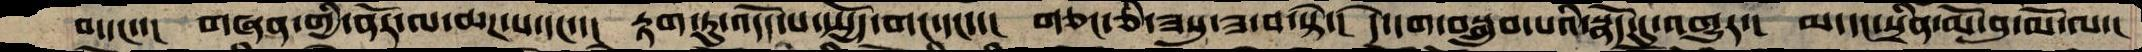བ་དང་་།  གཞན་གྱི་ནོར་ལ་ཆཌ་པ་དང་་།  རྟག་ཏུ་འདོད་པ་སྤྱོད་གང་དང་་།  གཅང་ཅི་ཟསུ་ཟ་བ་སྟེ་།  དེ་དག་བསྒྲུབ་པའི་སྣོད་དུ་འགྱུར་།  མ་དང་སྲིན་མོ་བུ་མོ་ལ་།
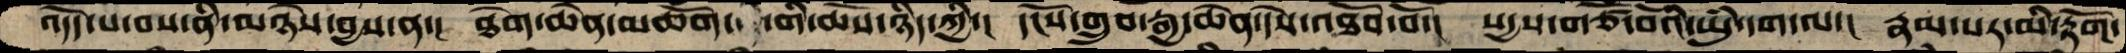འདོད་པ་བས་ནི་མཉེས་བྱས་ན་།  ཐེག་ཆེན་མཆོག་ གི་ཆོས་ཉིད་ཀྱི་།  དངོས་གྲུབ་རྒྱ་ཆེན་དེས་འཐོབ་བོ་།  སདྱས་གཙོ་བོའི་ཡུཾ་དག་ལ་།  རྣམ་པར་མི་རྟོག་
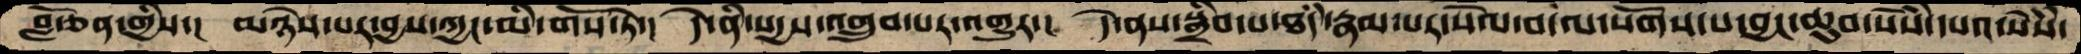བློ་ཅན་གྱིས་།  མཉེས་པར་བྱས་ཀྱང་མི་གོས་ཏེ་།  དེ་ནི་སདྱས་འགྲུབ་པར་འགྱུར་།  དེ་ནས་སྒྲིབ་པ་ཐཾད་རྣམ་པར་སེལ་བ་ལ་སོགས་པ་བྱང་ཆུབ་སེཾས་དཔའ་སེཾས་
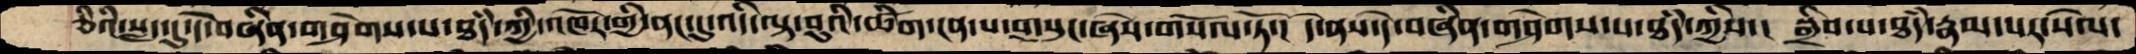ཅིའི་སླད་དུ་དེ་བཞིན་གཤེགས་པ་ཐཾད་ཀྱི་འཁོར་གྱི་ནང་དུ་འདི་ལྟ་བུའི་ཚིག་ངན་པ་གསུང་ཞེས་གསོལ་ཏོ་།  དེ་ནས་དེ་བཞིན་གཤེགས་པ་ཐཾད་ཀྱིས་།  སྒྲིབ་པ་ཐཾད་རྣམ་པར་སེལ་
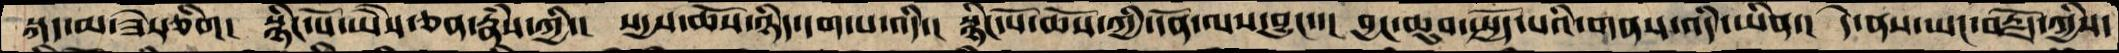སྐད་མ་ཟེར་ཅིག།  སྙིང་པོ་ཡཻས་ཅན་རྣཾས་ཀྱི་།  སདྱས་ཆོས་ཉིད་དག་པ་འདི་།  སྙིང་པོ་ཆོས་ཀྱི་དོན་ལས་བྱུང་་།  བྱང་ཆུབ་སྤྱོད་པའི་གནས་འདི་ཡིན་།  དེ་ནས་ཡང་བརྗོད་ཀྱིས་
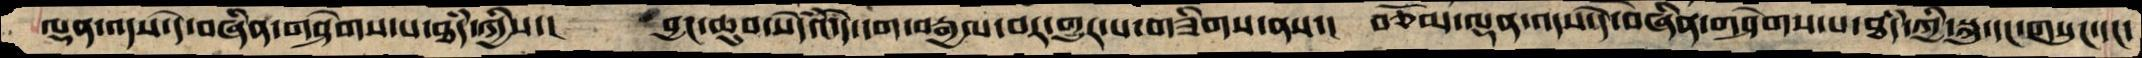ལྡན་འདས་དེ་བཞིན་གཤེགས་པ་ཐཾད་ཀྱིས་།  བྱང་ཆུབ་སེདཾའ་དེ་དག་བརྒྱལ་བར་གྱུར་པ་གཟིགས་ནས་།  བཅོམ་ལྡན་འདས་དེ་བཞིན་གཤེགས་པ་ཐཾད་ཀྱི་སྐུ་དང་གསུང་དང་
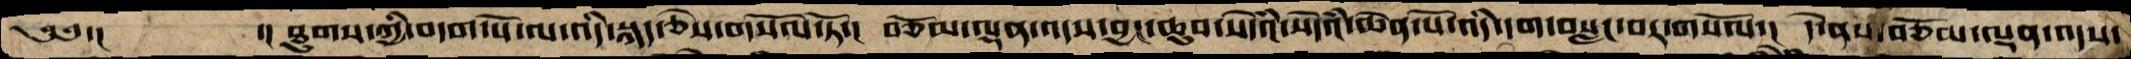༄༅་།       ་།ཐུགས་ཀྱི་བདག་པོ་ལ་འདི་སྐད་ཅེས་གསོལ་ཏོ་།  བཅོམ་ལྡན་འདས་བྱང་ཆུབ་སེདཾའ་སེདཾའ་ཆེན་པོ་འདི་དག་བསླང་བར་གསོལ་།  དེ་ནས་བཅོམ་ལྡན་འདས་
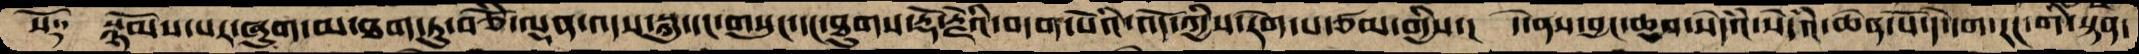སོ༑  སྙོམས་པར་ཞུག་མ་ཐག་ཏུ་བཅོཾ་ལྡན་འདས་སྐུ་དང་གསུང་དང་ཐུགས་རྡོ་རྗེའི་བདག་པོའི་འོད་ཀྱིས་རེག་པ་ཙམ་གྱིས་།  དེ་ནས་བྱང་ཆུབ་སེདཾའ་སེདཾའ་ཆེན་པོ་དེ་དག་རང་གི་སྟན་
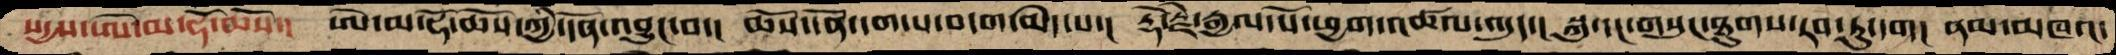སདྱས་ཨེ་མ་ཧོ་ཆོས་།  ཨེ་མ་ཧོ་ཆོས་ཀྱི་དོན་འབྱུང་བ་།  ཆོས་དོན་དག་པ་བདག་མེད་པ་།  རྡོ་རྗེ་རྒྱལ་པོ་ཕྱག་འཚལ་འདུད་།  སྐུ་དང་གསུང་ཐུགས་རབ་ཏུ་དག།  ནམ་མཁའ་
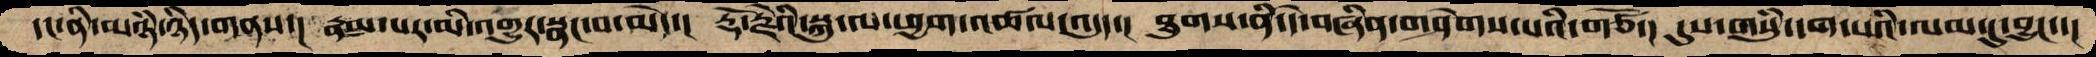དང་ནི་མཉཾ་ཉིད་གནས་།  རྣམ་པར་མི་འགྱུར་སྣང་བ་མེད་།  རྡོ་རྗེའི་སྐུ་ལ་ཕྱག་འཚལ་འདུད་།  ཐུགས་ནི་དེ་བཞིན་གཤེགས་པའི་གཙོ་།  དུས་གསུཾཾ་དག་པའི་ལམ་དུ་བྱུང་་།
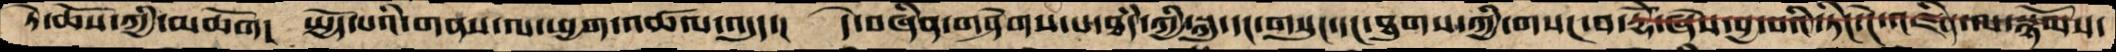ཏེ་ཆོས་ཀྱི་མཆོག།  སྤྱོད་པའི་གནས་ལ་ཕྱག་འཚལ་འདུད་  དེ་བཞིན་གཤེགས་པ་ཐཾད་ཀྱི་སྐུ་དང་གསུང་དང་ཐུགས་ཀྱི་གསང་བ་རྡོེ་ཞེས་བྱ་བའི་ཏིང་ངེ་འཛིན་ལ་སྙོམས་
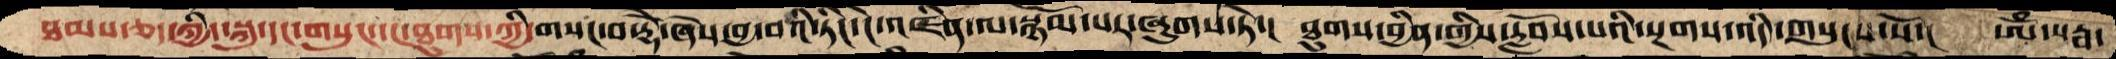ཐམས་ཅད་ཀྱི་སྐུ་དང་གསུང་དང་ཐུགས་ཀྱི་གསང་བ་རྡོེ་ཞེས་བྱ་བའི་ཏིང་ངེ་འཛིན་ལ་སྙོམ་པར་ཞུགས་ཏེ་།  ཐུགས་བྱིན་གྱིས་རློབས་པའི་སྔགས་འདི་གསུངས་སོ་།  ཨོཾ་སརྦ་
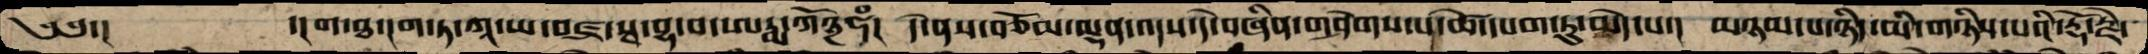༄༅་།  ་།ག་ཐ་ངག་ཏ་ཀཱ་ཡ་བཛྲ་སྭ་བྷ་བ་ཨཏྨ་ཀོ྅ཧཾ།  དེ་ནས་བཅོམ་ལྡན་འདས་དེ་བཞིན་གཤེགས་པ་ཚེ་དཔག་ཏུ་མེད་པ་།  མཉམ་པ་ཉིད་མི་གཉིས་པའི་རྡོ་རྗེ་
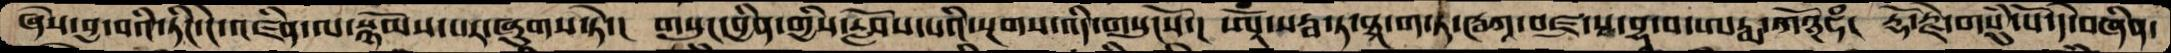ཞེས་བྱ་བའི་ཏིང་ངེ་འཛིན་ལ་སྙོམས་པར་ཞུགས་ཏེ་།  གསུང་བྱིན་གྱིས་རློབས་པའི་སྔགས་འདི་གསུངས་སོ་།  ཨཱོཾ་སརྦ་ཏ་ཐཱ་ག་ཏ་ཝཀཱ་བཛྲ་སྭ་བྷ་བ་ཨཏྨ་ཀོ྅ཧཾ།  རྡོ་རྗེ་གསུཾ་པོ་དེ་བཞིན་
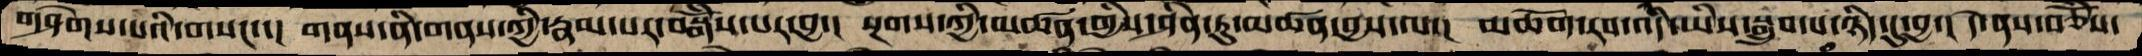གཤེགས་པའི་གསང་་།  གནས་ནི་གནས་ཀྱི་རྣམ་པར་བསྒོཾས་པར་བྱ་།  སྔགས་ཀྱི་མཚན་གྱིས་ཤིན་ཏུ་མཚན་བྱས་པ་།  མཆོག་རབ་འདི་ཡིས་སྒྲུབ་པ་ཉིད་དུ་བྱ་།  དེ་ནས་བཅོཾས་
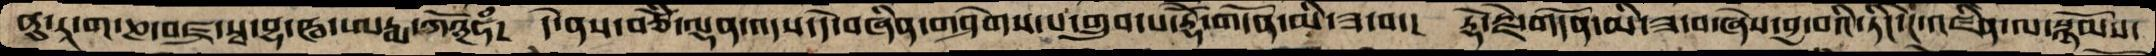ནུ་རཱ་ག་ཎ་བཛྲ་སྭ་བྷ་ཝ་ཨཏྨ་ཀོ྅ཧཾ།  དེ་ནས་བཅོཾ་ལྡན་འདས་དེ་བཞིན་གཤེགས་པ་གྲུབ་པ་རྡོེ་གདོན་མི་ཟ་བ་།  རྡོ་རྗེ་གདོན་མི་ཟ་བ་ཞེས་བྱ་བའི་ཏིང་ངེ་ཛིན་ལ་སྙོམས་
